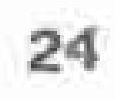24
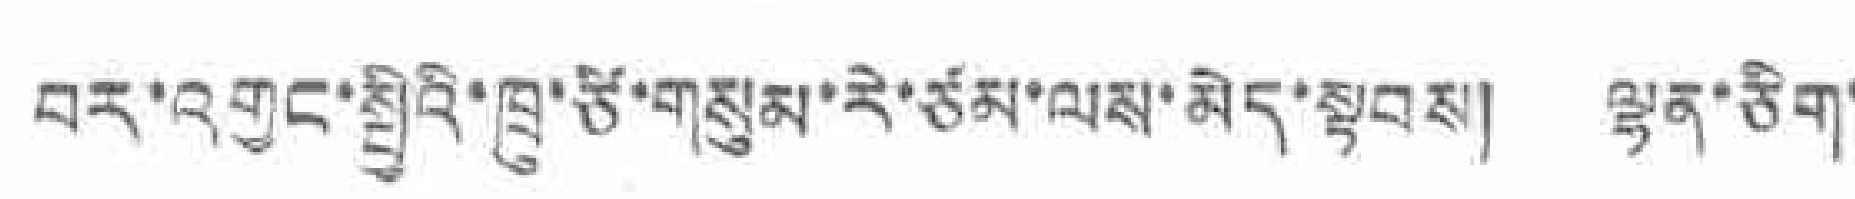བར་འགྱང་སྤྱིའི་ཁྲུ་ཙི་གསུམ་རེ་ཙམ་ལས་མེད་སྟབས། ལྷན་ཅིག་
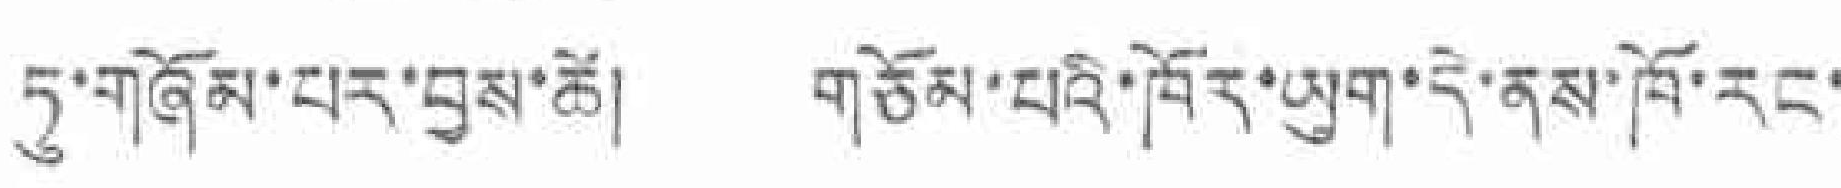ཏུ་གཞོམ་པར་བྱས་ཚེ། གཅོམ་པའི་ཁོར་ཡུག་དེ་ནས་ཁོ་རང་
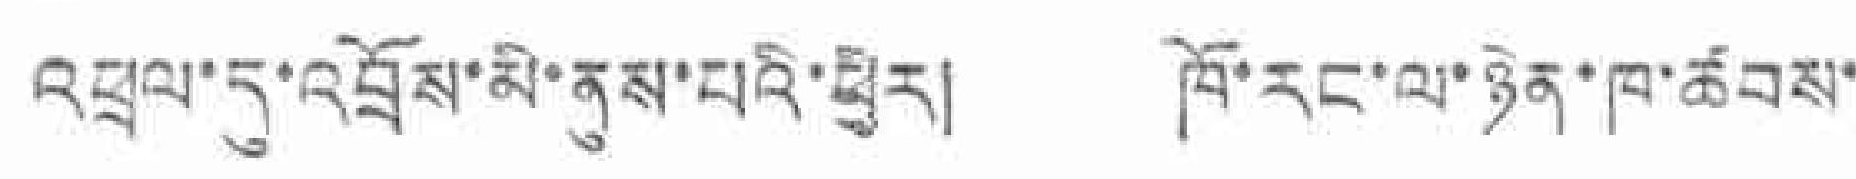འཕྲལ་དུ་འབྲོས་མི་ནུས་པའི་ཕྱིར། ཁོ་རང་ལ་ཉེན་ཁ་ཚབས་
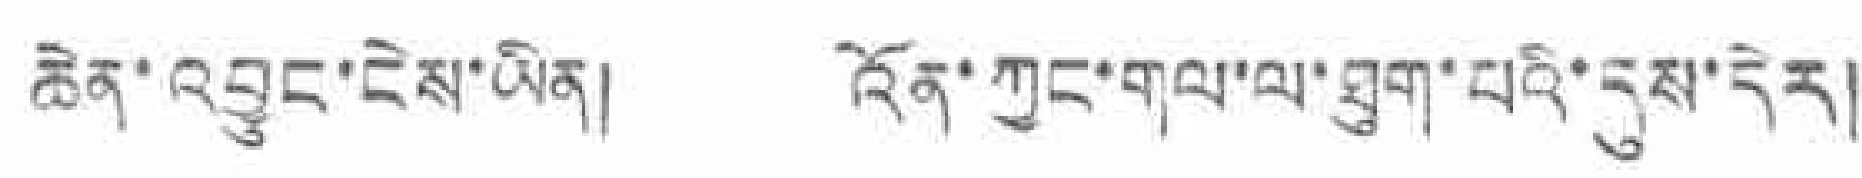ཆེན་འབྱུང་ངེས་ཡིན། འོན་ཀྱང་གལ་ལ་ཐུག་པའི་དུས་དེར།
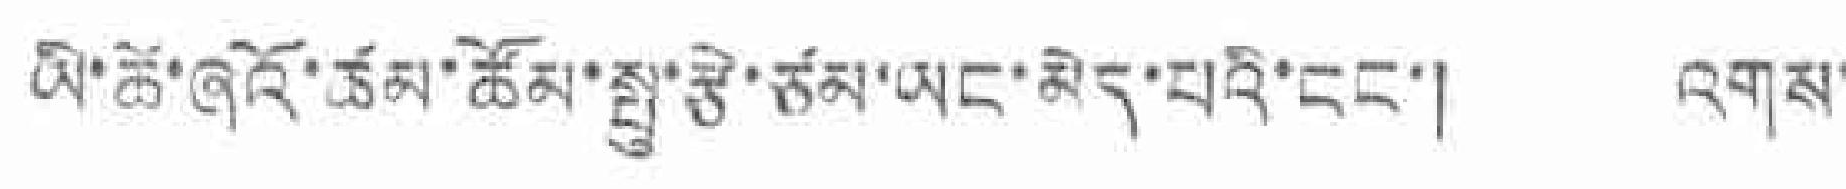ཡི་ཚེ་ཞའོ་ཚམ་ཚོམ་སྤུ་རྩེ་ཙམ་ཡང་མེད་པའི་ངང་། འགས་
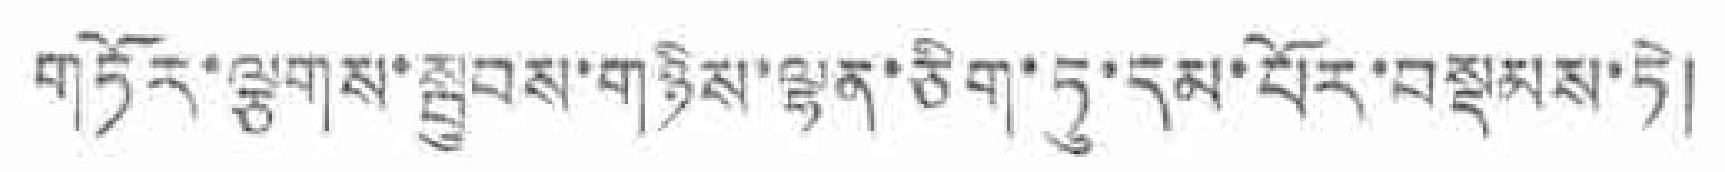གཏོར་ལྕགས་སྦུབས་གཉིས་ལྷན་ཅིག་ཏུ་དམ་པོར་བསྡམས་ཏེ།
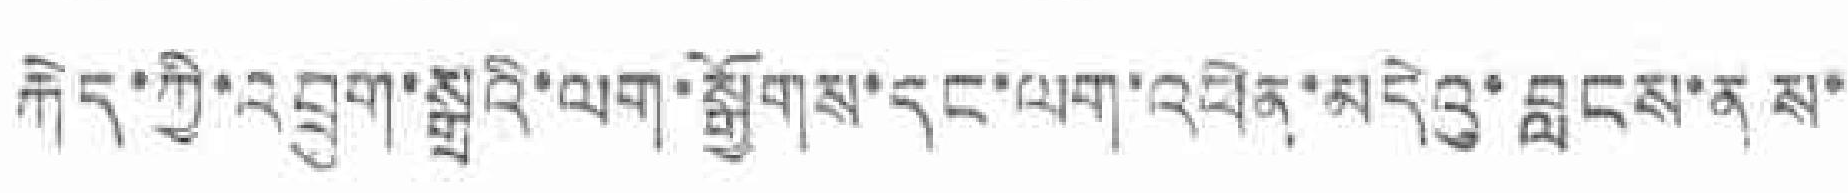རྐྱེད་ཀྱི་འབྲུག་སྐྲུའི་ལག་སྒྲོགས་རང་ལག་འཕོན་མདེའུ་བླངས་ནས་
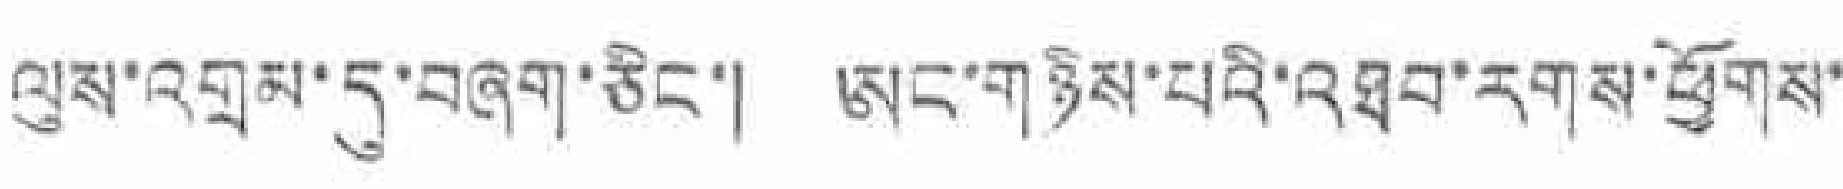ལུས་འགྲམ་དུ་བཞག་ཅིང་། ཨང་གཉིས་པའི་འཐབ་རགས་ཕྱོགས་
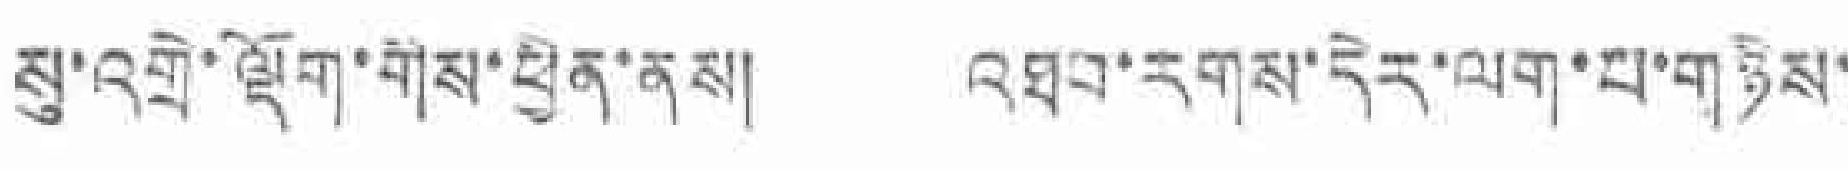སུ་འགྲེ་ལྡོག་གིས་ཕྱིན་ནས། འཐབ་དགས་དེར་ལག་པ་གཉིས་
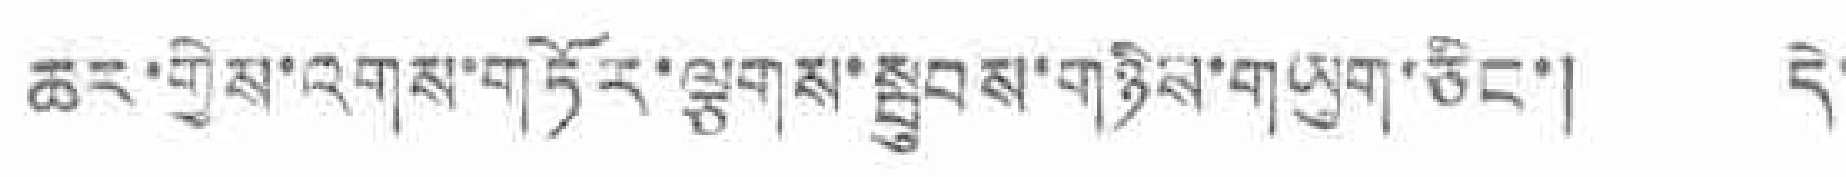ཆར་གྱིས་འགས་གཏོར་ལྕགས་སྦུབས་གཉིས་གཡུག་ཅིང་། དེ་
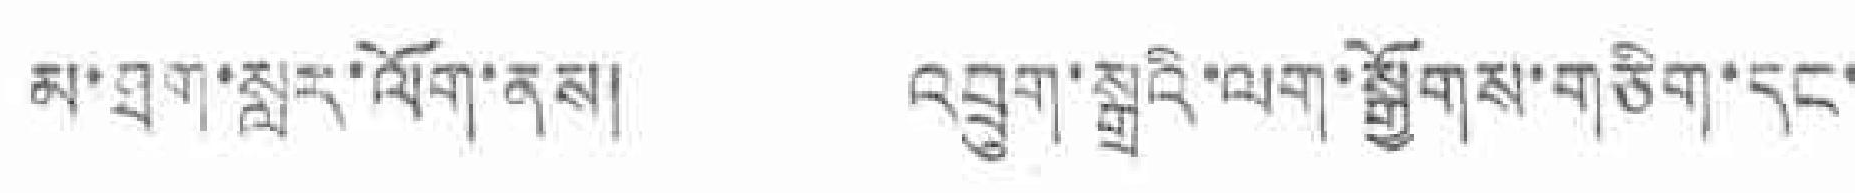མ་ཐག་སླར་ལོག་ནས། འབྲུག་སྒྲུའི་ལག་སྒྱོགས་གཅིག་དང་
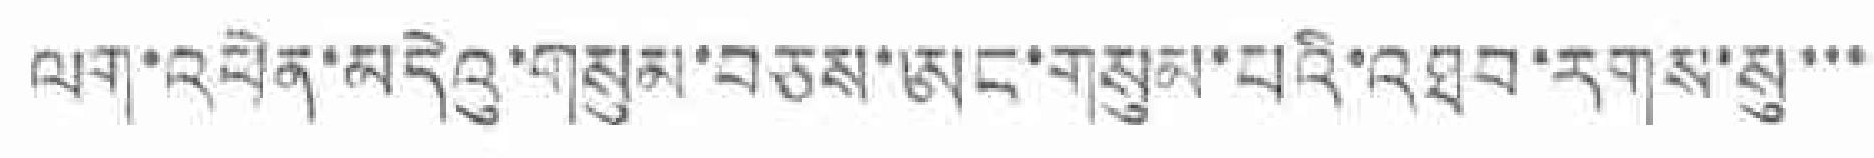ལག་འཕེན་མདེའུ་གསུམ་བཅས་ཨང་གསུམ་པའི་འཐབ་རགས་སུ་་་
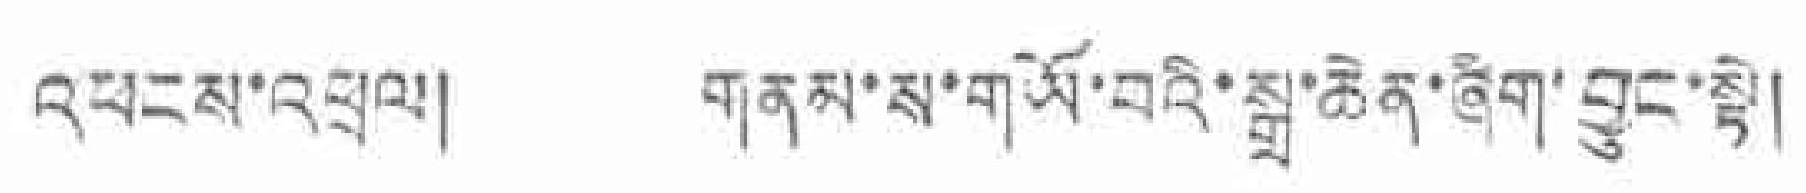འཕངས་འཕྲལ། གནམ་ས་གཡོ་བའི་སྒྲ་ཆེན་ཞིག་བྱུང་སྟེ།
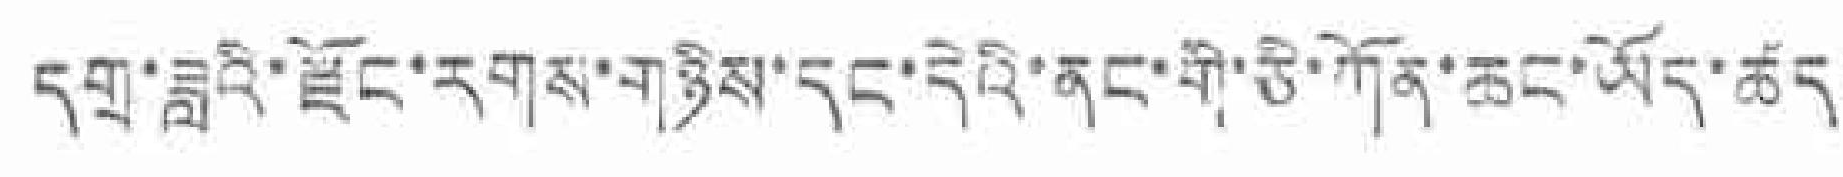དགྲ་ཟླའི་རྫོང་རགས་གཉིས་དང་དེའི་ནང་གི་ཅི་ཀོན་ཆང་ཡོད་ཚད་
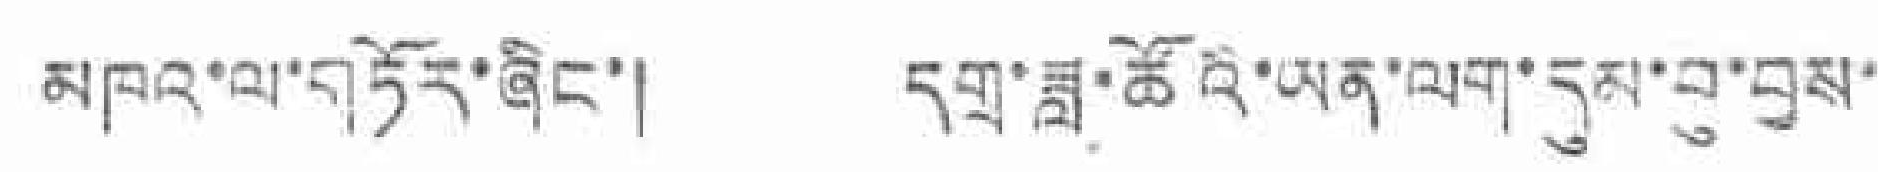མཁའ་ལ་གཏོར་ཞིང་། དགྲ་ཟླ་ཚོའ་ཡན་ལག་དུམ་བུ་བྱས་
